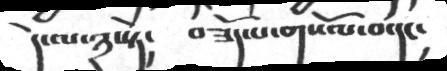དེ་ལ་༣་སྟེ།  བཟོད་པ་གསོལ་བ་དང།
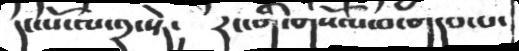དང་པོ་ལ་༢་སྟེ།  རང་གི་གསོལ་བ་གདབ་པ་
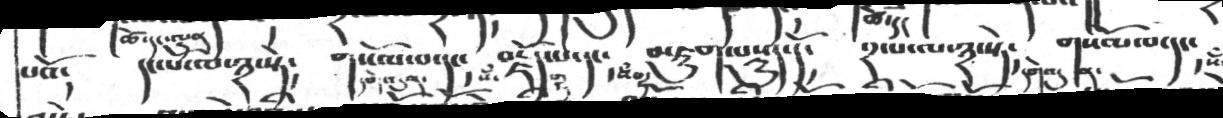པའོ།     དང་པོ་ལ་༣་སྟེ།    གསོལ་བ་དང།   བརྗོད་པ་དང།    མཇུག་བསྡུད་དོ།    ༢་པ་ལ་༣་སྟེ།     གསོལ་པ་དང་
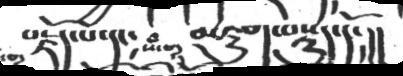བརྗོད་པ་དང།     མཇུག་བསྡུད་དོ།།
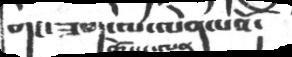གང་ཟག་ལ་ལེན་པའོ།
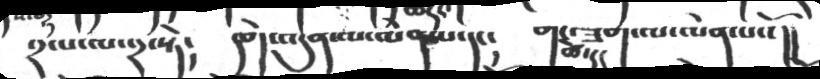༢་པ་ལ་༢་སྟེ།     དགེ་འདུན་ལ་ལེན་པ་དང།     གང་ཟག་ལ་ལེན་པའོ།།
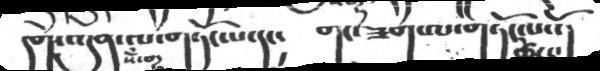དགེ་འདུན་ལ་གཏོང་པ་དང།     གང་ཟག་ལ་གཏོང་པའོ།།
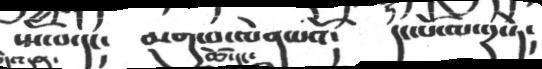སྤོ་བ་དང༴  མགུ་བ་ལེན་པའོ༴  དང་པོ་ལ་༢་ཏེ༴
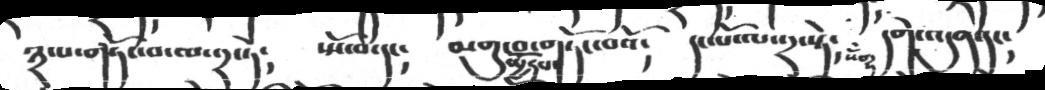༣་པ་གཏོའ་བ་ལ་༢་ཏེ༴  སྤོ་བ་དང༴  མགུ་བ་གཏོང་བའོ༴  དང་པོ་ལ་༢སྟེ༴  དགེ་འདུན་དང༴
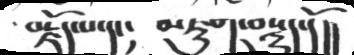བརྗོད་པ་དངད།  མཇུག་བསྡུད་དོ།།
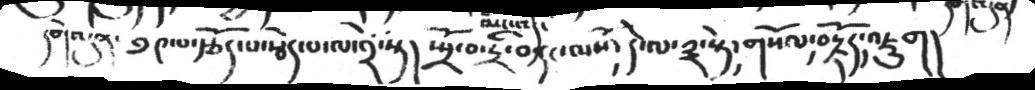དགེ་འདུན ༄ ༤་པ་རྩོད་པ་སྦེད་པ་ལ་༢་སྟེ།  སྤྲོ་བ་ཏྲི་བརྟང་ལསོ༴  དེ་ལ་༣་སྟེ༴གསོལ༴བརྗོད༴འཇུག།
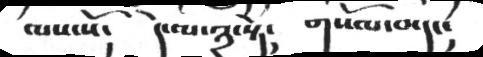ལས་སོ།  དེ་ལ་༣་སྟེ།  གསོལ་བ་དང།
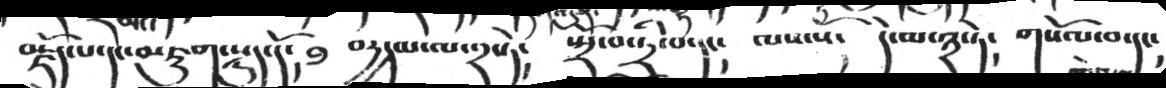བརྗོད་པ་དེང་མཇུག་སྡུད་དོ།   བརྱད་པ་ལ་༢་སྟེ།  སྤྲོ་བ་དྲི་པ་དང།  ལས་སོ།  དེ་ལ་༣་ཏེ།  གསོལ་བ་དང།
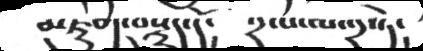མཇུག་བསྡུད་དོ།  ༢་པ་ལ་༢་སྟེ།
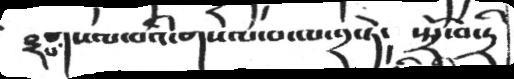༣པ་གསལ་བའི་གལས་པ་ལ་༢་ཏེ༴  སྤྲོ་བ་ཏྲི
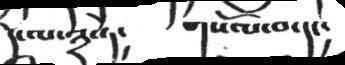དེ་ལ་༣་ཏེ།   གསོལ་བ་དང།
